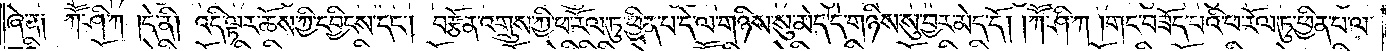ཞེ་ན། ཀཽ་ཤི་ཀ །དེ་ནི། འདི་ལྟར་ཆོས་ཀྱི་དབྱིངས་དང༌། བརྩོན་འགྲུས་ཀྱི་ཕ་རོལ་ཏུ་ཕྱིན་པ་དེ་ལ་གཉིས་སུ་མེད་དེ་གཉིས་སུ་བྱར་མེད་དོ། །ཀཽ་ཤི་ཀ །གང་བཟོད་པའི་ཕ་རོལ་ཏུ་ཕྱིན་པ་ལ་
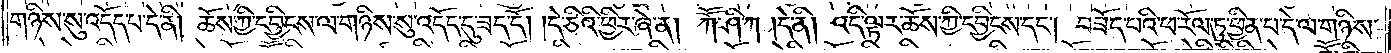གཉིས་སུ་འདོད་པ་དེ་ནི། ཆོས་ཀྱི་དབྱིངས་ལ་གཉིས་སུ་འདོད་དུ་ཟད་དོ། དེ་ཅིའི་ཕྱིར་ཞེ་ན། ཀཽ་ཤི་ཀ །དེ་ནི། འདི་ལྟར་ཆོས་ཀྱི་དབྱིངས་དང༌། བཟོད་པའི་ཕ་རོལ་ཏུ་ཕྱིན་པ་དེ་ལ་གཉིས་
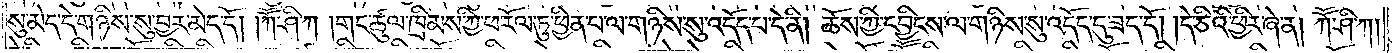སུ་མེད་དེ་གཉིས་སུ་བྱར་མེད་དོ། །ཀཽ་ཤི་ཀ །གང་ཚུལ་ཁྲིམས་ཀྱི་ཕ་རོལ་ཏུ་ཕྱིན་པ་ལ་གཉིས་སུ་འདོད་པ་དེ་ནི། ཆོས་ཀྱི་དབྱིངས་ལ་གཉིས་སུ་འདོད་དུ་ཟད་དོ། །དེ་ཅིའི་ཕྱིར་ཞེ་ན། ཀཽ་ཤི་ཀ།
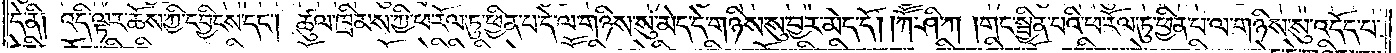དེ་ནི། འདི་ལྟར་ཆོས་ཀྱི་དབྱིངས་དང༌། ཚུལ་ཁྲིམས་ཀྱི་ཕ་རོལ་ཏུ་ཕྱིན་པ་དེ་ལ་གཉིས་སུ་མེད་དེ་གཉིས་སུ་བྱར་མེད་དོ། །ཀཽ་ཤི་ཀ །གང་སྦྱིན་པའི་ཕ་རོལ་ཏུ་ཕྱིན་པ་ལ་གཉིས་སུ་འདོད་པ་
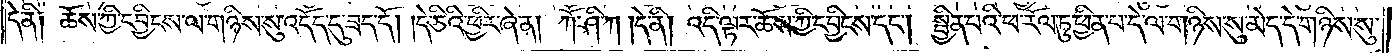དེ་ནི། ཆོས་ཀྱི་དབྱིངས་ལ་གཉིས་སུ་འདོད་དུ་ཟད་དོ། །དེ་ཅིའི་ཕྱིར་ཞེ་ན། ཀཽ་ཤི་ཀ །དེ་ནི། འདི་ལྟར་ཆོས་ཀྱི་དབྱིངས་དང༌། སྦྱིན་པའི་ཕ་རོལ་ཏུ་ཕྱིན་པ་དེ་ལ་གཉིས་སུ་མེད་དེ་གཉིས་སུ་
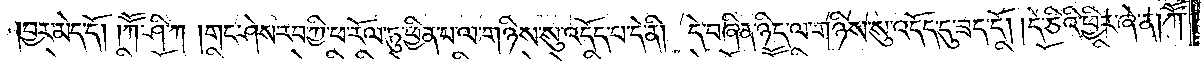བྱར་མེད་དོ། །ཀཽ་ཤི་ཀ །གང་ཤེས་རབ་ཀྱི་ཕ་རོལ་ཏུ་ཕྱིན་པ་ལ་གཉིས་སུ་འདོད་པ་དེ་ནི། དེ་བཞིན་ཉིད་ལ་གཉིས་སུ་འདོད་དུ་ཟད་དོ། །དེ་ཅིའི་ཕྱིར་ཞེ་ན། ཀཽ་
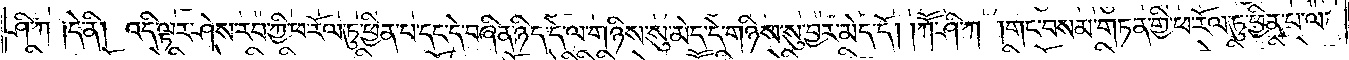ཤི་ཀ །དེ་ནི། འདི་ལྟར་ཤེས་རབ་ཀྱི་ཕ་རོལ་ཏུ་ཕྱིན་པ་དང་དེ་བཞིན་ཉིད་དེ་ལ་གཉིས་སུ་མེད་དེ་གཉིས་སུ་བྱར་མེད་དོ། །ཀཽ་ཤི་ཀ །གང་བསམ་གཏན་གྱི་ཕ་རོལ་ཏུ་ཕྱིན་པ་ལ་
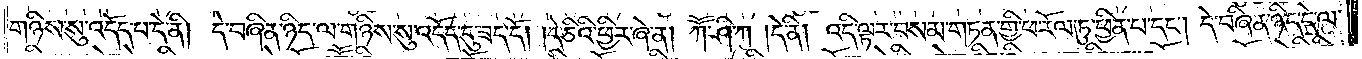གཉིས་སུ་འདོད་པ་དེ་ནི། དེ་བཞིན་ཉིད་ལ་གཉིས་སུ་འདོད་དུ་ཟད་དོ། །དེ་ཅིའི་ཕྱིར་ཞེ་ན། ཀཽ་ཤི་ཀ །དེ་ནི། འདི་ལྟར་བསམ་གཏན་གྱི་ཕ་རོལ་ཏུ་ཕྱིན་པ་དང༌། དེ་བཞིན་ཉིད་དེ་ལ་
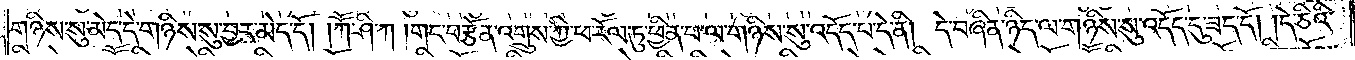གཉིས་སུ་མེད་དེ་གཉིས་སུ་བྱར་མེད་དོ། །ཀཽ་ཤི་ཀ །གང་བརྩོན་འགྲུས་ཀྱི་ཕ་རོལ་ཏུ་ཕྱིན་པ་ལ་གཉིས་སུ་འདོད་པ་དེ་ནི། དེ་བཞིན་ཉིད་ལ་གཉིས་སུ་འདོད་དུ་ཟད་དོ། །དེ་ཅིའི་
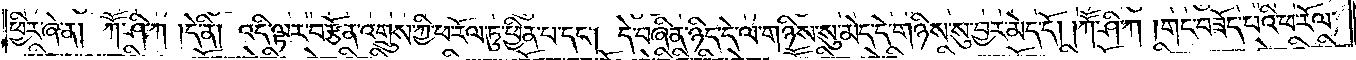ཕྱིར་ཞེ་ན། ཀཽ་ཤི་ཀ །དེ་ནི། འདི་ལྟར་བརྩོན་འགྲུས་ཀྱི་ཕ་རོལ་ཏུ་ཕྱིན་པ་དང༌། །དེ་བཞིན་ཉིད་དེ་ལ་གཉིས་སུ་མེད་དེ་གཉིས་སུ་བྱར་མེད་དོ། །ཀཽ་ཤི་ཀ །གང་བཟོད་པའི་ཕ་རོལ་
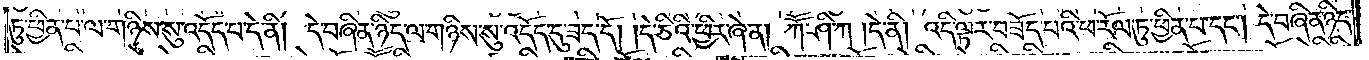ཏུ་ཕྱིན་པ་ལ་གཉིས་སུ་འདོད་པ་དེ་ནི། དེ་བཞིན་ཉིད་ལ་གཉིས་སུ་འདོད་དུ་ཟད་དོ། །དེ་ཅིའི་ཕྱིར་ཞེ་ན། ཀཽ་ཤི་ཀ །དེ་ནི། འདི་ལྟར་བཟོད་པའི་ཕ་རོལ་ཏུ་ཕྱིན་པ་དང༌། དེ་བཞིན་ཉིད་
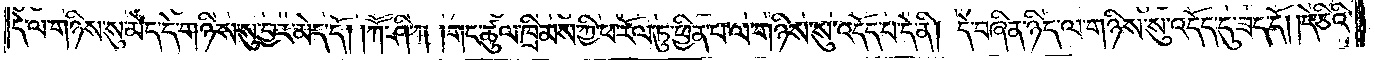དེ་ལ་གཉིས་སུ་མེད་དེ་གཉིས་སུ་བྱར་མེད་དོ། །ཀཽ་ཤི་ཀ །གང་ཚུལ་ཁྲིམས་ཀྱི་ཕ་རོལ་ཏུ་ཕྱིན་པ་ལ་གཉིས་སུ་འདོད་པ་དེ་ནི། དེ་བཞིན་ཉིད་ལ་གཉིས་སུ་འདོད་དུ་ཟད་དོ། །དེ་ཅིའི་
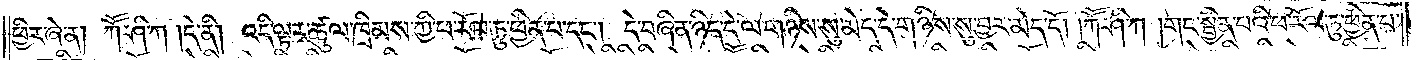ཕྱིར་ཞེ་ན། ཀཽ་ཤི་ཀ །དེ་ནི། འདི་ལྟར་ཚུལ་ཁྲིམས་ཀྱི་ཕ་རོལ་ཏུ་ཕྱིན་པ་དང༌། དེ་བཞིན་ཉིད་དེ་ལ་གཉིས་སུ་མེད་དེ་གཉིས་སུ་བྱར་མེད་དོ། །ཀཽ་ཤི་ཀ །གང་སྦྱིན་པའི་ཕ་རོལ་ཏུ་ཕྱིན་པ་
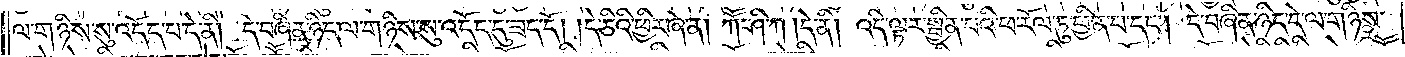ལ་གཉིས་སུ་འདོད་པ་དེ་ནི། དེ་བཞིན་ཉིད་ལ་གཉིས་སུ་འདོད་དུ་ཟད་དོ། །དེ་ཅིའི་ཕྱིར་ཞེ་ན། ཀཽ་ཤི་ཀ །དེ་ནི། འདི་ལྟར་སྦྱིན་པའི་ཕ་རོལ་ཏུ་ཕྱིན་པ་དང༌། དེ་བཞིན་ཉིད་དེ་ལ་གཉིས་
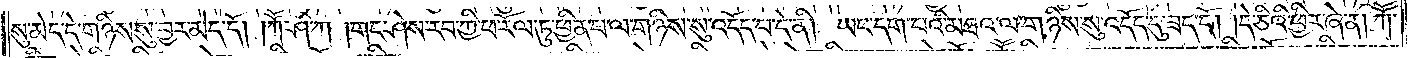སུ་མེད་དེ་གཉིས་སུ་བྱར་མེད་དོ། །ཀཽ་ཤི་ཀ །གང་ཤེས་རབ་ཀྱི་ཕ་རོལ་ཏུ་ཕྱིན་པ་ལ་གཉིས་སུ་འདོད་པ་དེ་ནི། ཡང་དག་པའི་མཐའ་ལ་གཉིས་སུ་འདོད་དུ་ཟད་དོ། །དེ་ཅིའི་ཕྱིར་ཞེ་ན། ཀཽ་
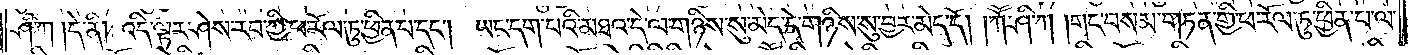ཤི་ཀ །དེ་ནི། འདི་ལྟར་ཤེས་རབ་ཀྱི་ཕ་རོལ་ཏུ་ཕྱིན་པ་དང༌། ཡང་དག་པའི་མཐའ་དེ་ལ་གཉིས་སུ་མེད་དེ་གཉིས་སུ་བྱར་མེད་དོ༎ ཀཽ་ཤི་ཀ །གང་བསམ་གཏན་གྱི་ཕ་རོལ་ཏུ་ཕྱིན་པ་ལ་
